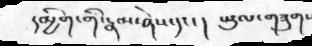དམྱིག་གི་རྣམ་ཤེས་དང་།      ཡུལ་གཟུགས
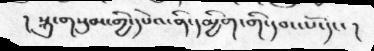། སྐུ་གསུམ་གྱི་དཔེའ་ནི་དམྱིག་གི་དབང་པོ་དང་།
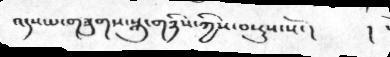འདས་པ་གཟུགས་སྐུ་གཉིས་ཀྱིས་བསྡུས་སོ་།  །
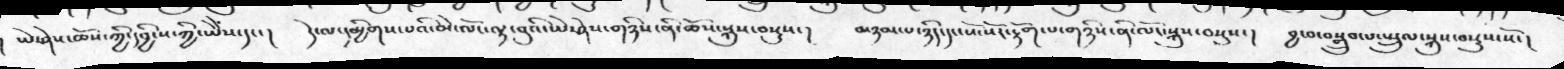།ཡེ་ཤེས་ཆོས་ཀྱི་དབྱིངས་ཀྱི་ཡཻས་དང་།   དེ་ལ་དམྱིགས་པའི་མེ་ལོང་ལྟ་བུའི་ཡེ་ཤེས་གཉིས་ནི་ཆོས་སྐུས་བསྡུས་།   མཉམ་པ་ཉིད་དང་སོ་སོར་རྟོག་པ་གཉིས་ནི་ལོང་སྐུས་བསྡུས་།   བྱ་བ་བསྒྲུབ་པ་སྤྲུལ་སྐུས་བསྡུས་སོ་།
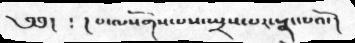༄༅།  ༴ ། པ་ལསོགས་པས་སྤྲས་པར་སྣང་པའོ་།
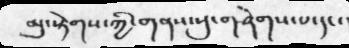མུ་སྟེགས་ཀྱི་གནས་སུ་གཤེགས་པ་དང་།
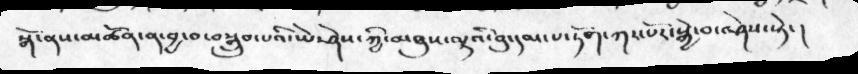སྒོ་ནས་མཚོན་ན་བྱ་བ་བསྒྲུབ་པའི་ཡེ་ཤེས་ཀྱི་མཐུས་ལྟའི་བུ་དམ་པ་ཏོག་ཀར་པོར་སྐྱེ་བ་འཤེས་སྟེ་།
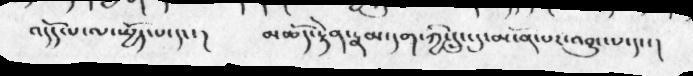འདོད་པ་ལ་སྤྱོད་པ་དང་།   མཆོད་རྟེན་རྣམ་དག་ཀྱི་དྲུང་དུ་མངོན་པར་འབྱུང་པ་དང་།
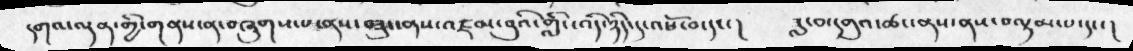དགའ་ལྡན་གྱི་གནས་ན་བཞུགས་པ་ནས་བཟུང་ནས་འཛམ་བུའི་གླིང་འདི་ཉིད་དུ་འཕོ་བ་དང་།    ཟླ་བ་དགུའ་ཚང་ནས་ནས་བལྟམ་པ་དང་།
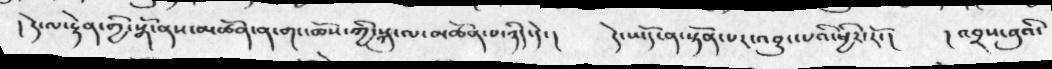།  དེ་ལ་རྟེན་གྱི་སྒོ་ནས་མཚོན་ན་གང་ཆོས་ཀྱི་སྐུ་ལ་མཚོན་པ་ཉིད་དེ་།    དེ་ཡོད་ན་སྟོན་པར་འབྱུང་པའི་ཕྱིར་རོ་།  ། འབྲས་བུའི་
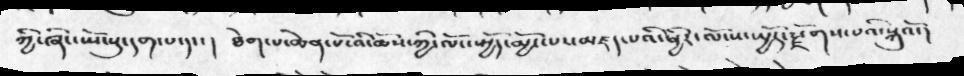ཀྱི་ཞིང་ཡོངསུ་དག་པ་དང་།   ཐེག་པ་ཆེན་པོ་འི་ཆོས་ཀྱི་ལོངས་སྤྱོད་མྱོང་པར་མཛད་པའི་ཕྱིར་ལོངས་སྤྱོད་རྫོགས་པའི་སྐུའོ་།
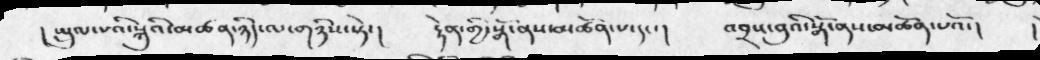།  སྤྲུལ་པའི་སྐུའི་མཚན་ཉིད་ལ་གཉིས་སྟེ་།    རྟེན་གྱི་སྒོ་ནས་མཚོན་པ་དང་།     འབྲས་བུའི་སྒོ་ནས་མཚོན་པའོ་།
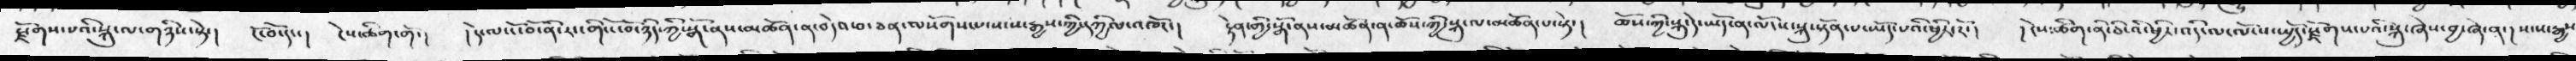རྫོགས་པའི་སྐུ་ལ་གཉིས་སྟེ་།   ངོ་བོ་དང་།   ངེས་ཚིག་གོ་།   ། དེ་ལ་ངོ་བོ་ནི་རང་གི་ངོ་བོ་ཉིད་ཀྱི་སྒོ་ནས་མཚོན་ན་བདེའ་བ་ཅན་ལསོགས་པ་སངས་རྒྱས་ཀྱི་དཀྱིལ་འཁོར་།    རྟེན་གྱི་སྒོ་ནས་མཚོན་ན་ཆོས་ཀྱི་སྐུ་ལ་མཚོན་པ་སྟེ་།     ཆོས་ཀྱི་སྐུ་དེ་ཡོད་ན་ལོངས་སྐུ་སྟོན་པ་ཡོད་པའི་ཕྱིར་རོ་།    ། ངེས་ཚིག་ནི་ཅི་འི་ཕྱིར་འདི་ལ་ལོངས་སྤྱོད་རྫོགས་པའི་སྐུ་ཞེས་བྱ་ཞེ་ན་།  སངས་རྒྱས
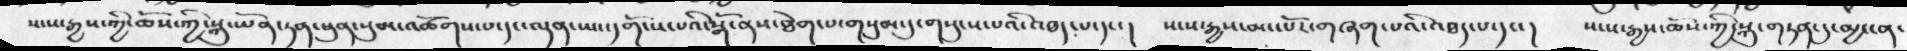སངས་རྒྱས་ཀྱི་ཆོས་ཀྱི་སྐུ་ཡོན་ཏན་ཕུན་སུམ་འཚོགས་པ་དང་ལྡན་ཡང་དགོངས་པའི་སྒོ་ནས་ཐེག་པ་གསུམ་དུ་གསུངས་པའི་འཐད་པ་དང་།  སངས་རྒྱས་མང་པོར་གཞག་པའི་འཐད་པ་དང་།  སངས་རྒྱས་ཆོས་ཀྱི་སྐུ་གཏན་དུ་མྱ་ངན་
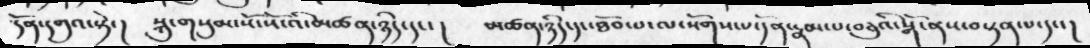དོན་དགུའ་སྟེ་།  སྐུ་གསུམ་སོ་སོ་འི་མཚན་ཉིད་དང་། མཚན་ཉིད་དང་ཐོབ་པ་ལ་སོགས་པ་དོན་རྣམ་པ་བཅུའི་སྒོ་ནས་བསྟན་པ་དང་།
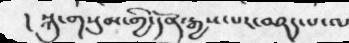།  སྐུ་གསུམ་གྱི་དོན་རྒྱས་པར་བཤད་པ་ལ་
